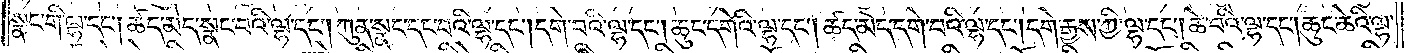སྣང་གི་ལྷ་དང༌། ཚད་མེད་སྣང་བའི་ལྷ་དང༌། ཀུན་སྣང་དང་བའི་ལྷ་དང༌། དགེ་བའི་ལྷ་དང༌། ཆུང་དགེའི་ལྷ་དང༌། ཚད་མེད་དགེ་བའི་ལྷ་དང༌། དགེ་རྒྱས་ཀྱི་ལྷ་དང༌། ཆེ་བའི་ལྷ་དང༌། ཆུང་ཆེའི་ལྷ་
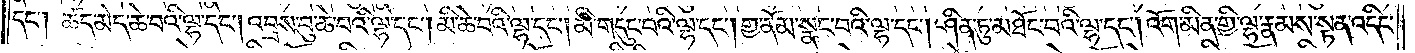དང༌། ཚད་མེད་ཆེ་བའི་ལྷ་དང༌། འབྲས་བུ་ཆེ་བའི་ལྷ་དང༌། མི་ཆེ་བའི་ལྷ་དང༌། མི་གདུང་བའི་ལྷ་དང༌། གྱ་ནོམ་སྣང་བའི་ལྷ་དང༌། ཤིན་ཏུ་མཐོང་བའི་ལྷ་དང༌། འོག་མིན་གྱི་ལྷ་རྣམས་སྟན་འདིང་
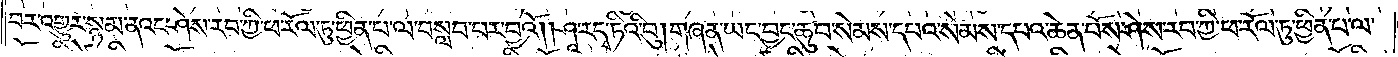བར་འགྱུར་སྙམ་ནའང་ཤེས་རབ་ཀྱི་ཕ་རོལ་ཏུ་ཕྱིན་པ་ལ་བསླབ་པར་བྱའོ། །ཤཱ་ར་དྭ་ཏིའི་བུ། གཞན་ཡང་བྱང་ཆུབ་སེམས་དཔའ་སེམས་དཔའ་ཆེན་པོས་ཤེས་རབ་ཀྱི་ཕ་རོལ་ཏུ་ཕྱིན་པ་ལ་
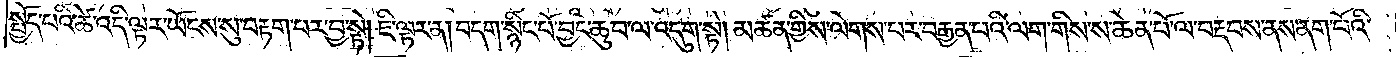སྤྱོད་པའི་ཚེ་འདི་ལྟར་ཡོངས་སུ་བརྟག་པར་བྱ་སྟེ། ཇི་ལྟར་ན། བདག་སྙིང་པོ་བྱང་ཆུབ་ལ་འདུག་སྟེ། མཚན་གྱིས་ལེགས་པར་བརྒྱན་པའི་ལག་གིས་ས་ཆེན་པོ་ལ་བརྡབས་ནས་ནག་པོའི་
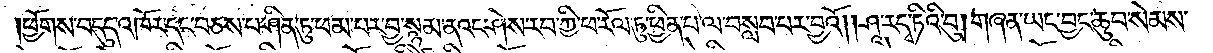ཕྱོགས་བདུད་འཁོར་དང་བཅས་པ་ཤིན་ཏུ་ཕམ་པར་བྱ་སྙམ་ནའང་ཤེས་རབ་ཀྱི་ཕ་རོལ་ཏུ་ཕྱིན་པ་ལ་བསླབ་པར་བྱའོ། །ཤཱ་ར་དྭ་ཏིའི་བུ། གཞན་ཡང་བྱང་ཆུབ་སེམས་
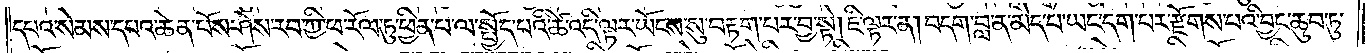དཔའ་སེམས་དཔའ་ཆེན་པོས་ཤེས་རབ་ཀྱི་ཕ་རོལ་ཏུ་ཕྱིན་པ་ལ་སྤྱོད་པའི་ཚེ་འདི་ལྟར་ཡོངས་སུ་བརྟག་པར་བྱ་སྟེ། ཇི་ལྟར་ན། བདག་བླ་ན་མེད་པ་ཡང་དག་པར་རྫོགས་པའི་བྱང་ཆུབ་ཏུ་
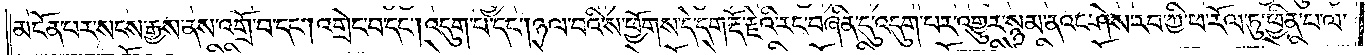མངོན་པར་སངས་རྒྱས་ནས་འགྲོ་བ་དང༌། འགྲེང་བ་དང༌། འདུག་པ་དང༌། ཉལ་བའི་ས་ཕྱོགས་དེ་དག་རྡོ་རྗེའི་རང་བཞིན་དུ་འདུག་པར་འགྱུར་སྙམ་ནའང་ཤེས་རབ་ཀྱི་ཕ་རོལ་ཏུ་ཕྱིན་པ་ལ་
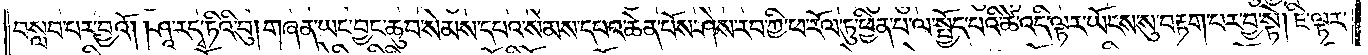བསླབ་པར་བྱའོ། །ཤཱ་ར་དྭ་ཏིའི་བུ། གཞན་ཡང་བྱང་ཆུབ་སེམས་དཔའ་སེམས་དཔའ་ཆེན་པོས་ཤེས་རབ་ཀྱི་ཕ་རོལ་ཏུ་ཕྱིན་པ་ལ་སྤྱོད་པའི་ཚེ་འདི་ལྟར་ཡོངས་སུ་བརྟག་པར་བྱ་སྟེ། ཇི་ལྟར་
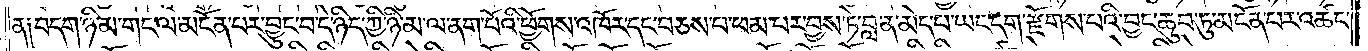ན༑ བདག་ཉི་མ་གང་ལ་མངོན་པར་བྱུང་བ་དེ་ཉིད་ཀྱི་ཉི་མ་ལ་ནག་པོའི་ཕྱོགས་འཁོར་དང་བཅས་པ་ཕམ་པར་བྱས་ཏེ་བླ་ན་མེད་པ་ཡང་དག་རྫོགས་པའི་བྱང་ཆུབ་ཏུ་མངོན་པར་འཚང་
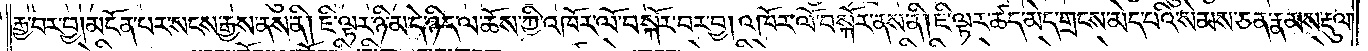རྒྱ་བར་བྱ། མངོན་པར་སངས་རྒྱས་ནས་ནི། ཇི་ལྟར་ཉི་མ་དེ་ཉིད་ལ་ཆོས་ཀྱི་འཁོར་ལོ་བསྐོར་བར་བྱ། འཁོར་ལོ་བསྐོར་ནས་ནི། ཇི་ལྟར་ཚད་མེད་གྲངས་མེད་པའི་སེམས་ཅན་རྣམས་རྡུལ་
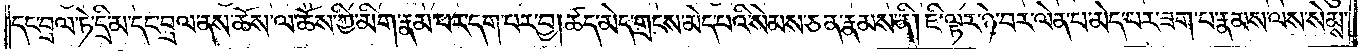དང་བྲལ་ཏེ་དྲི་མ་དང་བྲལ་ནས་ཆོས་ལ་ཆོས་ཀྱི་མིག་རྣམ་པར་དག་པར་བྱ། ཚད་མེད་གྲངས་མེད་པའི་སེམས་ཅན་རྣམས་ནི། ཇི་ལྟར་ཉེ་བར་ལེན་པ་མེད་པར་ཟག་པ་རྣམས་ལས་སེམས་
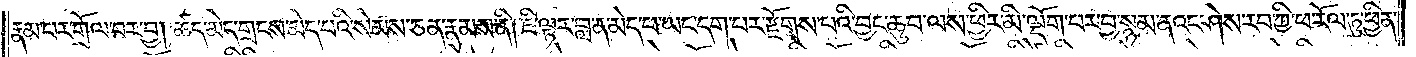རྣམ་པར་གྲོལ་བར་བྱ། ཚད་མེད་གྲངས་མེད་པའི་སེམས་ཅན་རྣམས་ནི། ཇི་ལྟར་བླ་ན་མེད་པ་ཡང་དག་པར་རྫོགས་པའི་བྱང་ཆུབ་ལས་ཕྱིར་མི་ལྡོག་པར་བྱ་སྙམ་ནའང་ཤེས་རབ་ཀྱི་ཕ་རོལ་ཏུ་ཕྱིན་
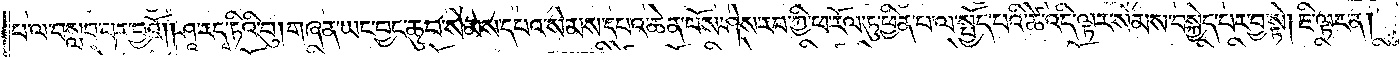པ་ལ་བསླབ་པར་བྱའོ། །ཤཱ་ར་དྭ་ཏིའི་བུ། གཞན་ཡང་བྱང་ཆུབ་སེམས་དཔའ་སེམས་དཔའ་ཆེན་པོས་ཤེས་རབ་ཀྱི་ཕ་རོལ་ཏུ་ཕྱིན་པ་ལ་སྤྱོད་པའི་ཚེ་འདི་ལྟར་སེམས་བསྐྱེད་པར་བྱ་སྟེ། ཇི་ལྟར་ན།
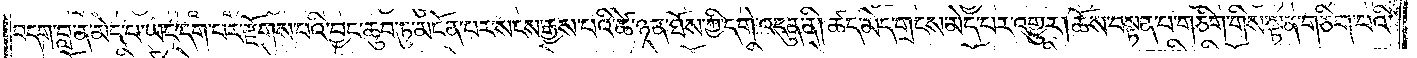བདག་བླ་ན་མེད་པ་ཡང་དག་པར་རྫོགས་པའི་བྱང་ཆུབ་ཏུ་མངོན་པར་སངས་རྒྱས་པའི་ཚེ་ཉན་ཐོས་ཀྱི་དགེ་འདུན་ནི། ཚད་མེད་གྲངས་མེད་པར་འགྱུར། ཆོས་བསྟན་པ་གཅིག་གིས་སྟན་གཅིག་པའི་
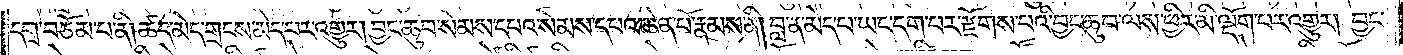དགྲ་བཅོམ་པ་ནི། ཚད་མེད་གྲངས་མེད་པར་འགྱུར། བྱང་ཆུབ་སེམས་དཔའ་སེམས་དཔའ་ཆེན་པོ་རྣམས་ནི། བླ་ན་མེད་པ་ཡང་དག་པར་རྫོགས་པའི་བྱང་ཆུབ་ལས་ཕྱིར་མི་ལྡོག་པར་འགྱུར། བྱང་
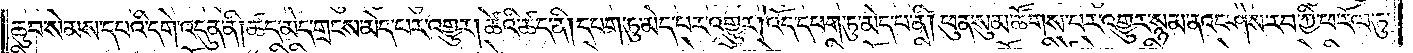ཆུབ་སེམས་དཔའི་དགེ་འདུན་ནི། ཚད་མེད་གྲངས་མེད་པར་འགྱུར། ཚེའི་ཚད་ནི། དཔག་ཏུ་མེད་པར་འགྱུར། འོད་དཔག་ཏུ་མེད་པ་ནི། ཕུན་སུམ་ཚོགས་པར་འགྱུར་སྙམ་ནའང་ཤེས་རབ་ཀྱི་ཕ་རོལ་ཏུ་
